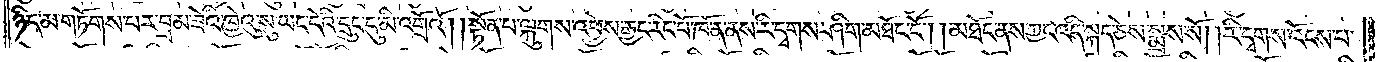ཉིད་མ་གཏོགས་པར་བྲམ་ཟེའི་ཁྱེའུ་སུ་ཡང་དེའི་དྲུང་དུ་མི་འགྲོའོ། །སྟོན་པ་ལྐུགས་འཕྱེས་རྒྱང་རིང་པོ་ཁོ་ན་ནས་རི་དྭགས་ཤིག་མཐོང་ངོ༌། །མཐོང་ནས་ཀྱང་འདི་སྐད་ཅེས་སྨྲས་སོ། །རི་དྭགས་འོངས་པ་
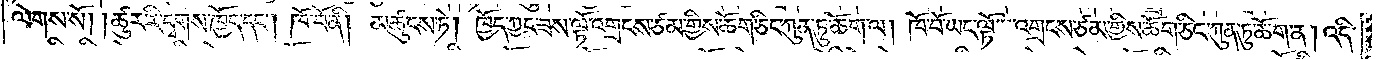ལེགས་སོ། །ཚུར་རི་དྭགས་ཁྱོད་དང༌། ཁོ་བོ་ནི། མཚུངས་ཏེ། ཁྱོད་ཀྱང་ཟས་ལྟོ་འགྲངས་ཅམ་གྱིས་ཆོག་ཅིང་ཀུན་ཏུ་ཆོག་ལ། ཁོ་བོ་ཡང་ལྟོ་འགྲངས་ཙམ་གྱིས་ཆོག་ཅིང་ཀུན་ཏུ་ཆོག་ན། འདི་
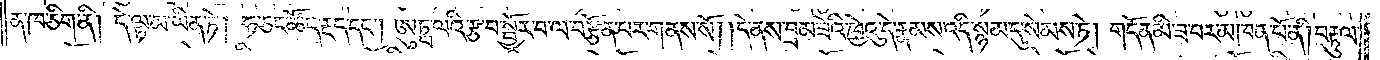ན་ཁ་ཅིག་ནི། དེ་ལྟ་མ་ཡིན་ཏེ། ཧ་ཅང་ཚོད་རྔད་དང༌། ཨུཏྤ་ལའི་རྩ་བ་སྦྱོར་བ་ལ་བརྩོན་པར་གནས་སོ། །དེ་ནས་བྲམ་ཟེའི་ཁྱེའུ་དེ་རྣམས་འདི་སྙམ་དུ་སེམས་ཏེ། གདོན་མི་ཟ་བར་མཁན་པོ་ནི། བརྟུལ་
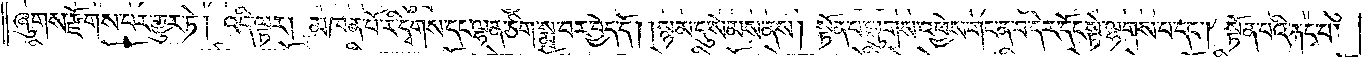ཞུགས་རྫོགས་པར་གྱུར་ཏེ། འདི་ལྟར། མཁན་པོ་རི་དྭགས་དང་ལྷན་ཅིག་སྨྲ་བར་བྱེད་དོ། །སྙམ་དུ་སེམས་ནས། སྟོན་པ་ལྐུགས་འཕྱེས་གང་ན་བ་དེར་དོང་སྟེ་ལྷགས་པ་དང༌། སྟོན་པའི་རྐང་པ་
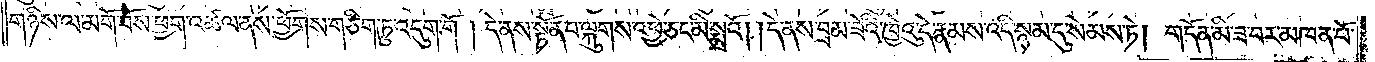གཉིས་ལ་མགོ་བོས་ཕྱག་འཚལ་ནས་ཕྱོགས་གཅིག་ཏུ་འདུག་གོ །དེ་ནས་སྟོན་པ་ལྐུགས་འཕྱེ་ཅང་མི་སྨྲའོ། །དེ་ནས་བྲམ་ཟེའི་ཁྱེའུ་དེ་རྣམས་འདི་སྙམ་དུ་སེམས་ཏེ། གདོན་མི་ཟ་བར་མཁན་པོ་
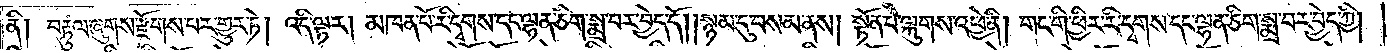ནི། བརྟུལ་ཞུགས་རྫོགས་པར་གྱུར་ཏེ། འདི་ལྟར། མཁན་པོ་རི་དྭགས་དང་ལྷན་ཅིག་སྨྲ་བར་བྱེད་དོ། །སྙམ་དུ་བསམ་ནས། སྟོན་པ་ལྐུགས་འཕྱེ་ནི། གང་གི་ཕྱིར་རི་དྭགས་དང་ལྷན་ཅིག་སྨྲ་བར་བྱེད་ཀྱི།
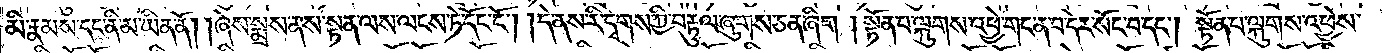མི་རྣམས་དང་ནི་མ་ཡིན་ནོ། །ཞེས་སྨྲས་ནས་སྟན་ལས་ལངས་ཏེ་དོང་ངོ༌། །དེ་ནས་རི་དྭགས་ཀྱི་བརྟུལ་ཞུགས་ཅན་ཞིག །སྟོན་པ་ལྐུགས་འཕྱེ་གང་ན་བ་དེར་སོང་བ་དང༌། སྟོན་པ་ལྐུགས་འཕྱེས་
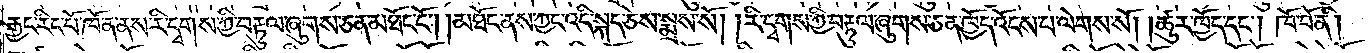རྒྱང་རིང་པོ་ཁོ་ན་ནས་རི་དྭགས་ཀྱི་བརྟུལ་ཞུགས་ཅན་མཐོང་ངོ༌། །མཐོང་ནས་ཀྱང་འདི་སྐད་ཅེས་སྨྲས་སོ། །རི་དྭགས་ཀྱི་བརྟུལ་ཞུགས་ཅན་ཁྱོད་འོངས་པ་ལེགས་སོ། །ཚུར་ཁྱོད་དང༌། ཁོ་བོ་ནི།
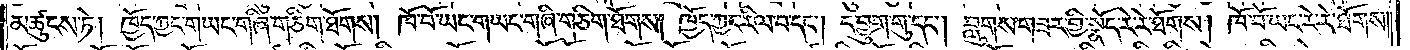མཚུངས་ཏེ། ཁྱོད་ཀྱང་གཡང་གཞི་གཅིག་ཐོགས། ཁོ་བོ་ཡང་གཡང་གཞི་གཅིག་ཐོགས། ཁྱོད་ཀྱང་རིལ་བ་དང༌། དབྱུག་གུ་དང༌། བླུགས་གཟར་གྱི་སྣོད་རེ་རེ་ཐོགས། ཁོ་བོ་ཡང་རེ་རེ་ཐོགས།
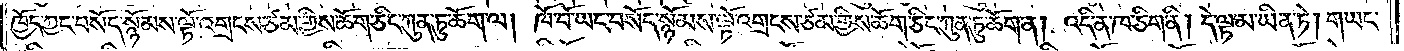ཁྱོད་ཀྱང་བསོད་སྙོམས་ལྟོ་འགྲངས་ཙམ་གྱིས་ཆོག་ཅིང་ཀུན་ཏུ་ཆོག་ལ། ཁོ་བོ་ཡང་བསོད་སྙོམས་ལྟོ་འགྲངས་ཙམ་གྱིས་ཆོག་ཅིང་ཀུན་ཏུ་ཆོག་ན། འདི་ན་ཁ་ཅིག་ནི། དེ་ལྟ་མ་ཡིན་ཏེ། གཡང་
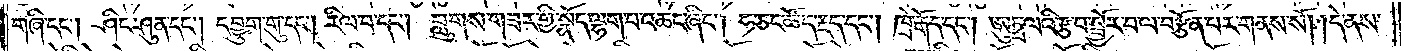གཞི་དང༌། ཤིང་ཤུན་དང༌། དབྱུག་གུ་དང༌། རིལ་བ་དང༌། བླུགས་གཟར་གྱི་སྣོད་ལྷག་པ་འཆང་ཞིང༌། ཧ་ཅང་ཚོད་རྔད་དང༌། ཁྲེ་རྒོད་དང༌། ཨུཏྤལའི་རྩ་བ་སྦྱོར་བ་ལ་བརྩོན་པར་གནས་སོ། །དེ་ནས་
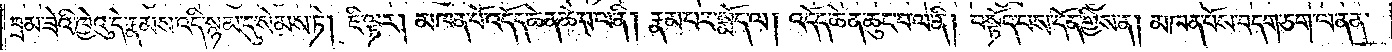བྲམ་ཟེའི་ཁྱེའུ་དེ་རྣམས་འདི་སྙམ་དུ་སེམས་ཏེ། ཇི་ལྟར། མཁན་པོ་འདོད་ཆེན་ཆེ་བ་ལ་ནི། རྣམ་པར་སྨོད་ལ། འདོད་ཆེན་ཆུང་བ་ལ་ནི། བསྟོད་པས་དོན་གྱིས་ན། མཁན་པོས་བདག་ཅག་ལ་ནན་
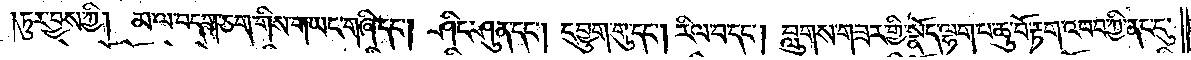ཏུར་བྱས་ཀྱི། མ་ལ་བདག་ཅག་གིས་གཡང་གཞི་དང༌། ཤིང་ཤུན་དང༌། དབྱུག་གུ་དང༌། རིལ་བ་དང༌། བླུགས་གཟར་གྱི་སྣོད་ལྷག་པ་ཆུ་བོ་རྟག་འབབ་ཀྱི་ནང་དུ་
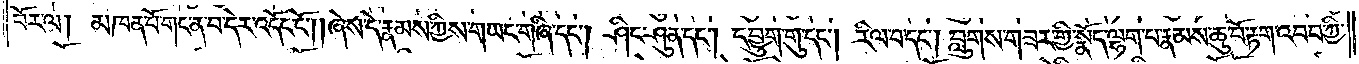བོར་ལ། མཁན་པོ་གང་ན་བ་དེར་འདོང་ངོ༌། །ཞེས་དེ་རྣམས་ཀྱིས་གཡང་གཞི་དང༌། ཤིང་ཤུན་དང༌། དབྱུག་གུ་དང༌། རིལ་བ་དང༌། བླུགས་གཟར་གྱི་སྣོད་ལྷག་པ་རྣམས་ཆུ་བོ་རྟག་འབབ་ཀྱི་
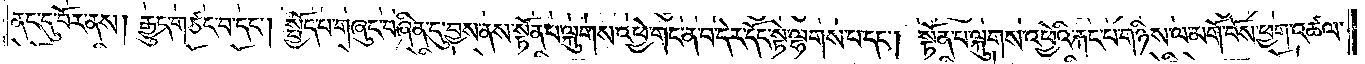ནང་དུ་བོར་ནས། རྒྱུད་གཙང་བ་དང༌། སྤྱོད་པ་གཞུང་བཞིན་དུ་བྱས་ནས་སྟོན་པ་ལྐུགས་འཕྱེ་གང་ན་བ་དེར་དོང་སྟེ་ལྷགས་པ་དང༌། སྟོན་པ་ལྐུགས་འཕྱེའི་རྐང་པ་གཉིས་ལ་མགོ་བོས་ཕྱག་འཚལ་
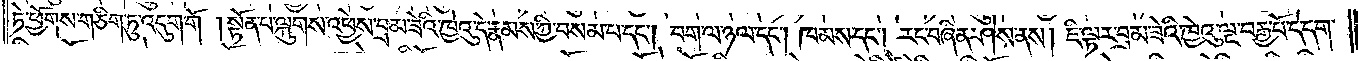ཏེ་ཕྱོགས་གཅིག་ཏུ་འདུག་གོ །སྟོན་པ་ལྐུགས་འཕྱེས་བྲམ་ཟེའི་ཁྱེའུ་དེ་རྣམས་ཀྱི་བསམ་པ་དང༌། བག་ལ་ཉལ་དང༌། ཁམས་དང༌། རང་བཞིན་ཤེས་ནས། ཇི་ལྟར་བྲམ་ཟེའི་ཁྱེའུ་ལྔ་བརྒྱ་པོ་དེ་དག་
